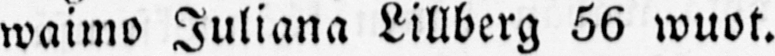waimo Juliana Lillberg 56 wuot.
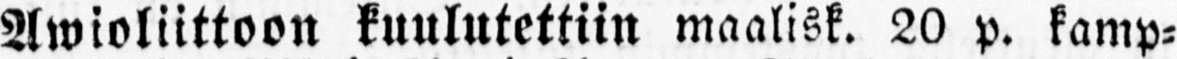Awioliittoon kuulutettiin maalisk. 20 p. kamp-
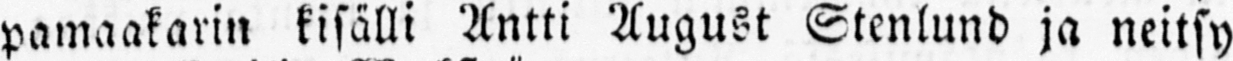pamaakarin kisälli Antti August Stenlund ja neitsy
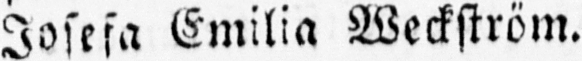Josesa Emilia Weckström.
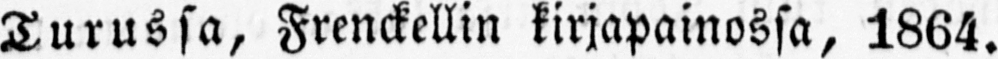Turussa, Frenckellin kirjapainossa, 1864.
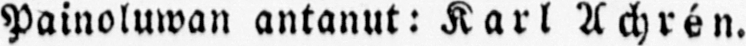Painoluwan antanut: Karl Achré n.
